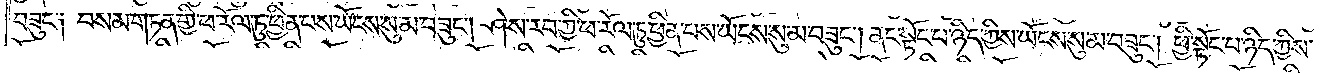བཟུང༌། བསམ་གཏན་གྱི་ཕ་རོལ་ཏུ་ཕྱིན་པས་ཡོངས་སུ་མ་བཟུང༌། ཤེས་རབ་ཀྱི་ཕ་རོལ་ཏུ་ཕྱིན་པས་ཡོངས་སུ་མ་བཟུང༌། ནང་སྟོང་པ་ཉིད་ཀྱིས་ཡོངས་སུ་མ་བཟུང༌། ཕྱི་སྟོང་པ་ཉིད་ཀྱིས་
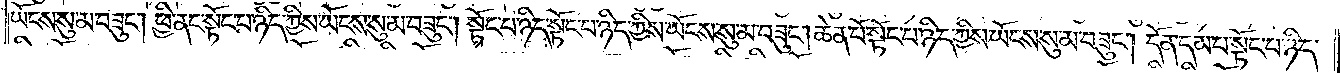ཡོངས་སུ་མ་བཟུང༌། ཕྱི་ནང་སྟོང་པ་ཉིད་ཀྱིས་ཡོངས་སུ་མ་བཟུང༌། སྟོང་པ་ཉིད་སྟོང་པ་ཉིད་ཀྱིས་ཡོངས་སུ་མ་བཟུང༌། ཆེན་པོ་སྟོང་པ་ཉིད་ཀྱིས་ཡོངས་སུ་མ་བཟུང༌། དོན་དམ་པ་སྟོང་པ་ཉིད་
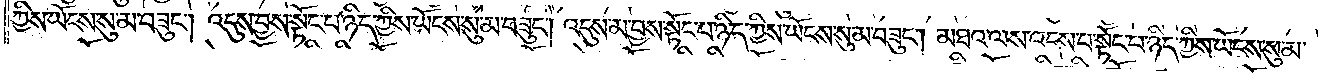ཀྱིས་ཡོངས་སུ་མ་བཟུང༌། འདུས་བྱས་སྟོང་པ་ཉིད་ཀྱིས་ཡོངས་སུ་མ་བཟུང༌། འདུས་མ་བྱས་སྟོང་པ་ཉིད་ཀྱིས་ཡོངས་སུ་མ་བཟུང༌། མཐའ་ལས་འདས་པ་སྟོང་པ་ཉིད་ཀྱིས་ཡོངས་སུ་མ་
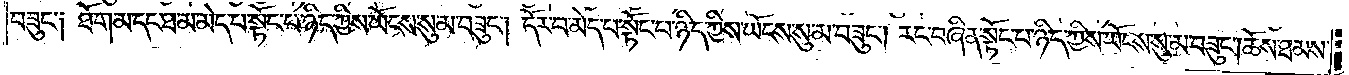བཟུང༌། ཐོག་མ་དང་ཐ་མ་མེད་པ་སྟོང་པ་ཉིད་ཀྱིས་ཡོངས་སུ་མ་བཟུང༌། དོར་བ་མེད་པ་སྟོང་པ་ཉིད་ཀྱིས་ཡོངས་སུ་མ་བཟུང༌། རང་བཞིན་སྟོང་པ་ཉིད་ཀྱིས་ཡོངས་སུ་མ་བཟུང༌། ཆོས་ཐམས་
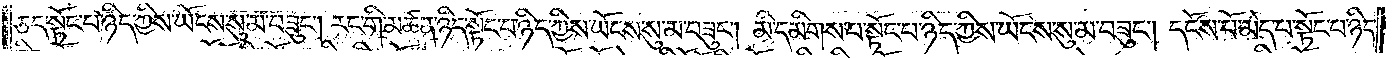ཅད་སྟོང་པ་ཉིད་ཀྱིས་ཡོངས་སུ་མ་བཟུང༌། རང་གི་མཚན་ཉིད་སྟོང་པ་ཉིད་ཀྱིས་ཡོངས་སུ་མ་བཟུང༌། མི་དམིགས་པ་སྟོང་པ་ཉིད་ཀྱིས་ཡོངས་སུ་མ་བཟུང༌། དངོས་པོ་མེད་པ་སྟོང་པ་ཉིད་
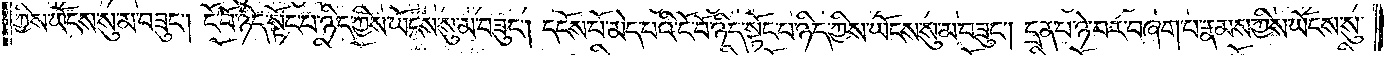ཀྱིས་ཡོངས་སུ་མ་བཟུང༌། ངོ་བོ་ཉིད་སྟོང་པ་ཉིད་ཀྱིས་ཡོངས་སུ་མ་བཟུང༌། དངོས་པོ་མེད་པའི་ངོ་བོ་ཉིད་སྟོང་པ་ཉིད་ཀྱིས་ཡོངས་སུ་མ་བཟུང༌། དྲན་པ་ཉེ་བར་བཞག་པ་རྣམས་ཀྱིས་ཡོངས་སུ་
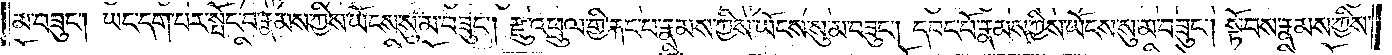མ་བཟུང༌། ཡང་དག་པར་སྤོང་བ་རྣམས་ཀྱིས་ཡོངས་སུ་མ་བཟུང༌། རྫུ་འཕྲུལ་གྱི་རྐང་པ་རྣམས་ཀྱིས་ཡོངས་སུ་མ་བཟུང༌། དབང་པོ་རྣམས་ཀྱིས་ཡོངས་སུ་མ་བཟུང༌། སྟོབས་རྣམས་ཀྱིས་
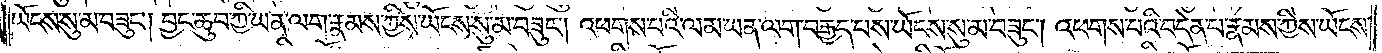ཡོངས་སུ་མ་བཟུང༌། བྱང་ཆུབ་ཀྱི་ཡན་ལག་རྣམས་ཀྱིས་ཡོངས་སུ་མ་བཟུང༌། འཕགས་པའི་ལམ་ཡན་ལག་བརྒྱད་པས་ཡོངས་སུ་མ་བཟུང༌། འཕགས་པའི་བདེན་པ་རྣམས་ཀྱིས་ཡོངས་
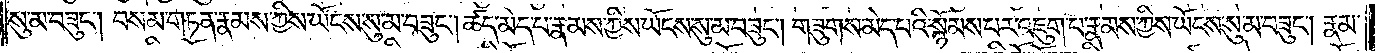སུ་མ་བཟུང༌། བསམ་གཏན་རྣམས་ཀྱིས་ཡོངས་སུ་མ་བཟུང༌། ཚད་མེད་པ་རྣམས་ཀྱིས་ཡོངས་སུ་མ་བཟུང༌། གཟུགས་མེད་པའི་སྙོམས་པར་འཇུག་པ་རྣམས་ཀྱིས་ཡོངས་སུ་མ་བཟུང༌། རྣམ་
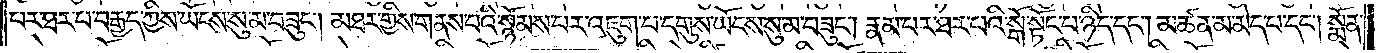པར་ཐར་པ་བརྒྱད་ཀྱིས་ཡོངས་སུ་མ་བཟུང༌། མཐར་གྱིས་གནས་པའི་སྙོམས་པར་འཇུག་པ་དགུས་ཡོངས་སུ་མ་བཟུང༌། རྣམ་པར་ཐར་པའི་སྒོ་སྟོང་པ་ཉིད་དང༌། མཚན་མ་མེད་པ་དང༌། སྨོན་
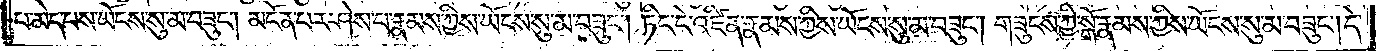པ་མེད་པས་ཡོངས་སུ་མ་བཟུང༌། མངོན་པར་ཤེས་པ་རྣམས་ཀྱིས་ཡོངས་སུ་མ་བཟུང༌། ཏིང་ངེ་འཛིན་རྣམས་ཀྱིས་ཡོངས་སུ་མ་བཟུང༌། གཟུངས་ཀྱི་སྒོ་རྣམས་ཀྱིས་ཡོངས་སུ་མ་བཟུང༌། དེ་
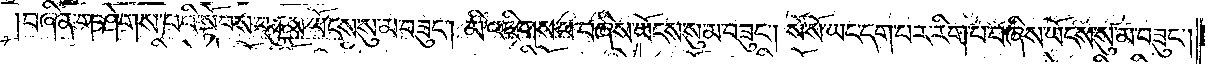བཞིན་གཤེགས་པའི་སྟོབས་བཅུས་ཡོངས་སུ་མ་བཟུང༌། མི་འཇིགས་པ་བཞིས་ཡོངས་སུ་མ་བཟུང༌། སོ་སོ་ཡང་དག་པར་རིག་པ་བཞིས་ཡོངས་སུ་མ་བཟུང༌།
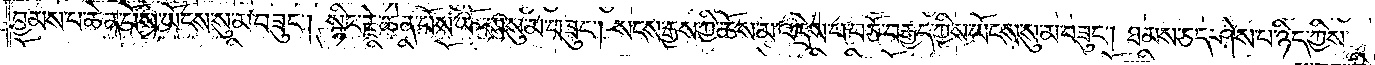བྱམས་པ་ཆེན་པོས་ཡོངས་སུ་མ་བཟུང༌། སྙིང་རྗེ་ཆེན་པོས་ཡོངས་སུ་མ་བཟུང༌། སངས་རྒྱས་ཀྱི་ཆོས་མ་འདྲེས་པ་བཅོ་བརྒྱད་ཀྱིས་ཡོངས་སུ་མ་བཟུང༌། ཐམས་ཅད་ཤེས་པ་ཉིད་ཀྱིས་
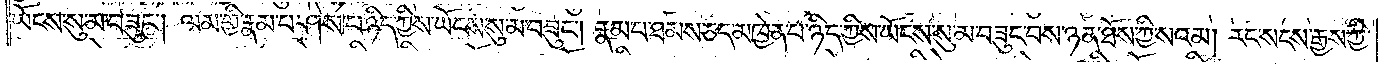ཡོངས་སུ་མ་བཟུང༌། ལམ་གྱི་རྣམ་པ་ཤེས་པ་ཉིད་ཀྱིས་ཡོངས་སུ་མ་བཟུང༌། རྣམ་པ་ཐམས་ཅད་མཁྱེན་པ་ཉིད་ཀྱིས་ཡོངས་སུ་མ་བཟུང་བས་ཉན་ཐོས་ཀྱི་སའམ། རང་སངས་རྒྱས་ཀྱི་
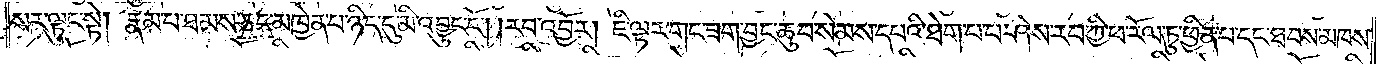སར་ལྟུང་སྟེ། རྣམ་པ་ཐམས་ཅད་མཁྱེན་པ་ཉིད་དུ་མི་འབྱུང་ངོ༌། །རབ་འབྱོར། ཇི་ལྟར་གང་ཟག་བྱང་ཆུབ་སེམས་དཔའི་ཐེག་པ་པ་ཤེས་རབ་ཀྱི་ཕ་རོལ་ཏུ་ཕྱིན་པ་དང་ཐབས་མཁས་
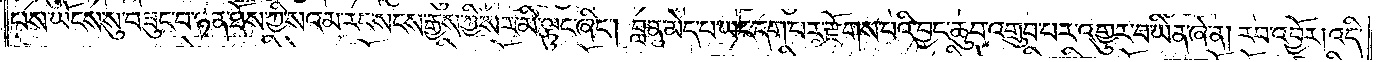པས་ཡོངས་སུ་བཟུང་བ་ཉན་ཐོས་ཀྱི་སའམ་རང་སངས་རྒྱས་ཀྱི་སར་མི་ལྟུང་ཞིང༌། བླ་ན་མེད་པ་ཡང་དག་པར་རྫོགས་པའི་བྱང་ཆུབ་འགྲུབ་པར་འགྱུར་བ་ཡིན་ཞེ་ན། རབ་འབྱོར། འདི་
